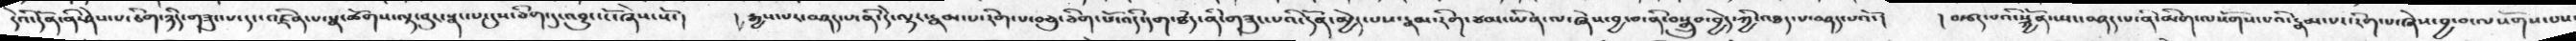དེའི་དོན་ནི་ཤེས་པ་ཅིག་ཉིད་གཟུང་པ་དང་འཛིན་པ་སྣ་ཚོགས་ལྟ་བུར་སྣང་པ་དུས་ཅིག་དུ་འབྱུང་ངོ་ཞེས་སོ་།  ། རྒྱས་པར་བཤད་པ་ནི་དེ་ལྟར་རྣམ་པ་རིག་པ་བཅུ་ཅིག་པོ་འདི་དག་ཐདཾ་ནི་གཟུང་པའི་དོན་མྱེད་པས་རྣམ་རིག་ཙམ་ཡིན་ལ་ཞེས་བྱ་བ་ནི་བསྒྲུབ་བྱེད་ཀྱི་འཐད་པ་བཤད་པའོ་།   ། བརྩད་པའི་སྐྱོན་སྤང་བཤད་པ་ནི་མིག་ལསོགས་པའི་རྣམ་པར་རིག་པ་ཞེས་བྱ་བ་ལསོགས་པས་
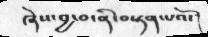ཞེས་བྱ་བ་ནི་བསྟན་པའོ་།
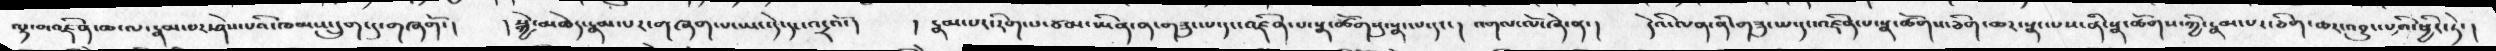ལྟ་བ་འཛིན་ཆ་ལ་རྣམ་པར་ཤེས་པའི་ཁམས་དྲུག་དུ་གཞགོ་།  ། སྐྱེ་མཆེད་རྣམ་པར་གཞག་པ་ཡང་དེ་དང་འདྲའོ་།  ། རྣམ་པར་རིག་པ་ཙམ་ཡིན་ན་གཟུང་པ་དང་འཛིན་པ་སྣ་ཚོགསུ་སྣང་པ་དང་།  འགལ་ལོ་ཞེ་ན་།  དེའི་ལན་ནི་གཟུང་པ་དང་འཛིན་པ་སྣ་ཚོགས་ཅིག་ཆར་སྣང་པས་ནི་སྣ་ཚོགས་ཀྱི་རྣམ་པར་ཅིག་ཆར་འབྱུང་པའི་ཕྱིར་ཏེ་།
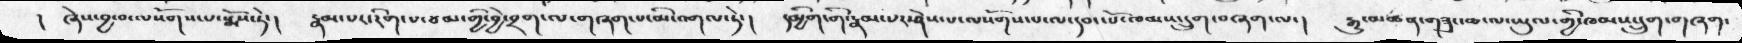། ཞེས་བྱ་བ་ལསོགས་པ་སྨོས་ཏེ་།  རྣམ་པར་རིག་པ་ཙམ་གྱི་བྱེ་བྲག་ལ་གཞག་པ་མི་འགལ་ཏེ་།  དམྱིག་གི་རྣམ་པར་ཤེས་པ་ལསོགས་པ་ལ་དབང་པོ་ཁམས་དྲུག་བཞག་ལ་།  རྒྱུ་མཚན་གཟུང་ཆ་ལ་ཡུལ་གྱི་ཁམས་དྲུག་གཞག་
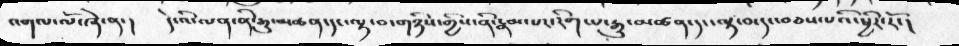འགལ་ལོ་ཞེ་ན་།  དེ་འི་ལན་ནི་རྒྱུ་མཚན་དང་ལྟ་བ་གཉིས་གྱིས་ནི་རྣམ་པར་རིག་པ་རྒྱུ་མཚན་དང་ལྟ་བ་དང་བཅས་པའི་ཕྱིར་རོ་།
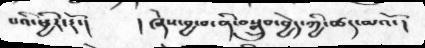པའི་ཕྱིར་རོ་།   ། ཞེས་བྱ་བ་ནི་བསྒྲུབ་བྱེད་ཀྱི་ཚད་མའོ་།
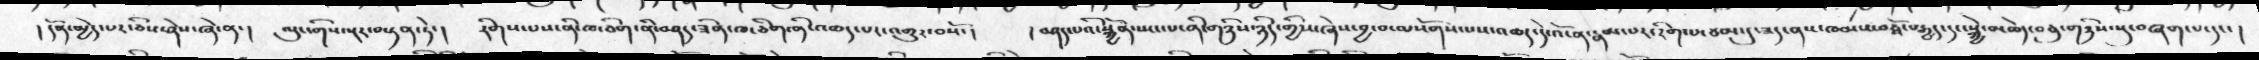། དོན་མྱེད་པར་ཅིས་ཤེས་ཞེ་ན་།  ལུང་གིས་སྔར་བསྟན་ཏེ་།  རིགས་པས་ནི་ཁ་ཅིག་ནི་བཤད་ཟིན་ཁ་ཅིག་ནི་འཆད་པར་འགྱུར་བསོ་།  །བཤད་པའི་སྐྱོན་སྤང་པ་ནི་གཉིས་ཉིད་གྱིས་ཞེས་བྱ་བ་ལསོགས་པས་འཆད་དེ་འོ་ན་རྣམ་པར་རིག་པ་ཙམ་དུ་ཟད་ནས་ཁམས་བཅྭོ་བརྒྱད་དང་སྐྱེ་མཆེད་བཅུ་གཉིས་སུ་བཞག་པ་དང་།
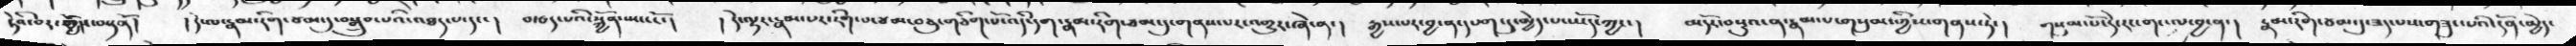ཏེའི་བར་ཁྱོད་བསྟནོ་།  །དེ་ལ་རྣམ་རིག་ཙམ་དུ་བསྒྲུབ་པའི་འཐད་པ་དང་།  བརྩད་པའི་སྐྱོན་སྤང་ངོ་།  །དེ་ལྟར་རྣམ་པར་རིག་པ་ཙམ་བཅུ་གཅིག་པོ་འདི་དག་རྣམ་རིག་ཙམ་དུ་གནས་འགྱུར་ཞེ་ན་།  རྒྱས་པར་བྱ་ན་དཔག་དུ་མྱེད་པ་ཡོད་ཀྱང་།  མདོར་བསྡུའ་ན་རྣམ་པ་གསུམ་གྱིས་གནས་ཏེ་།  གསུམ་པོ་ཏེ་རང་གང་ལ་བྱ་ན་།   རྣམ་རིག་ཙམ་དུ་ཟད་པས་གཟུང་པའི་དོན་མྱེད་
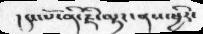། དང་པོ་ནི་ཇི་ལྟར་ནས་ཕྱིར་
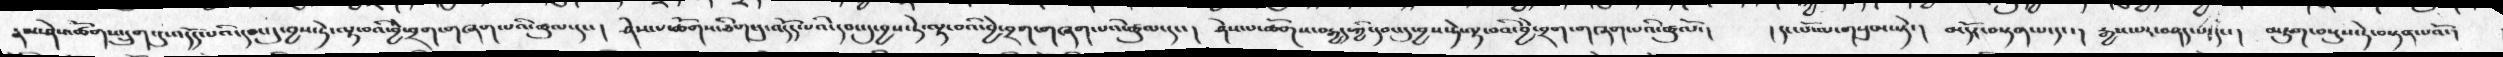རྣམ་ཤེས་ཚོགས་དྲུག་དུ་འདོད་པའི་དབང་དུ་བྱས་ཏེ་ལྟ་བའི་བྱེ་བྲག་གཞག་པའི་ཚུལ་དང་།  ཤེས་པ་ཚོགས་ཅིག་དུ་འདོད་པའི་དབང་དུ་བྱས་ཏེ་ལྟ་བའི་བྱེ་བྲག་གཞག་པའི་ཚུལ་དང་།  ཤེས་པ་ཚོགས་བརྒྱད་ཀྱི་དབང་དུ་བྱས་ཏེ་ལྟ་བའི་བྱེ་བྲག་གཞག་པའི་ཚུལོ་།    །དང་པོ་ལ་གསུམ་སྟེ་།  མདོར་བསྟན་པ་དང་།  རྒྱས་པར་བཤད་པ་དང་།  མཇུག་བསྡུས་ཏེ་བསྟན་པའོ་།
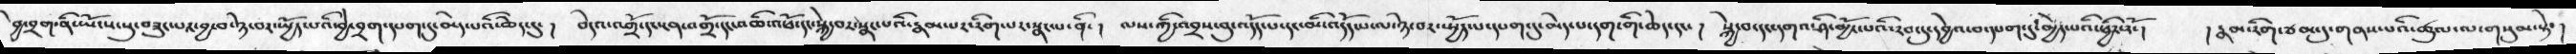བྱེ་བྲག་ནི་ཡོངས་སུ་བཟུང་པར་བྱ་བ་ཉེ་བར་སྤྱོད་པའི་བྱེ་བྲག་དཔག་དུ་མེད་པའི་ཆེད་དུ་།  བདེའ་འགྲོ་དང་ངན་འགྲོ་དང་འཆི་འཕོ་དང་སྐྱེ་བར་སྣང་པའི་རྣམ་པར་རིག་པར་སྣང་པ་ནི་།  ལས་ཀྱི་འབྲས་བུ་འདོད་པ་དང་མི་འདོད་པ་ལ་ཉེ་བར་སྤྱོད་པ་དཔག་དུ་མེད་པ་དག་གི་ཆེད་དང་།  སྐྱེ་བ་དང་དགའ་ཤི་མྱོང་པའི་རབ་དུ་དབྱེའ་བ་དཔག་དུ་མྱེད་པའི་ཕྱིར་རོ་།  །རྣམ་རིག་ཙམ་དུ་གནས་པའི་ཚུལ་ལ་གསུམ་སྟེ་།
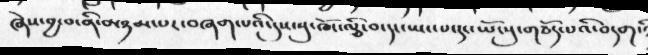ཞེས་བྱ་བ་ནི་མཉམ་པར་བཞག་པའི་དུས་སུ་ཁོང་ལྕི་བ་དང་ཡང་པ་དང་ཡོངསུ་གཅོད་པའི་བདག་
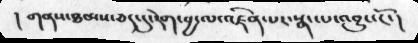། གནས་ཐམས་ཅད་དུ་རེག་བྱ་ལ་འཛིན་པར་སྣང་པ་འབྱུང་ངོ་།
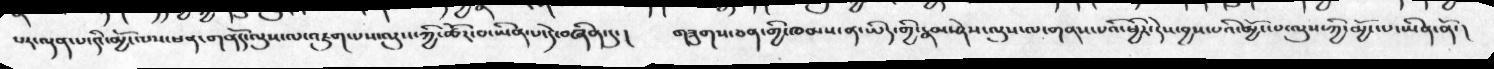པར་ལྡན་པ་འི་མྱོང་པས་ཕན་གནོད་ལུས་ལ་འཇུག་པས་ལུས་ཀྱི་ཚོར་བ་ཡིན་པ་དེ་བཞིན་དུ་།   གཟུགས་ཅན་གྱི་ཁམས་ན་ཡིད་གྱི་རྣམ་ཤེས་ལུས་ལ་གནས་པའི་ཕྱིར་དེས་བྱས་པའི་མྱོང་པ་ལུས་ཀྱི་མྱོང་པ་ཡིན་ནོ་།
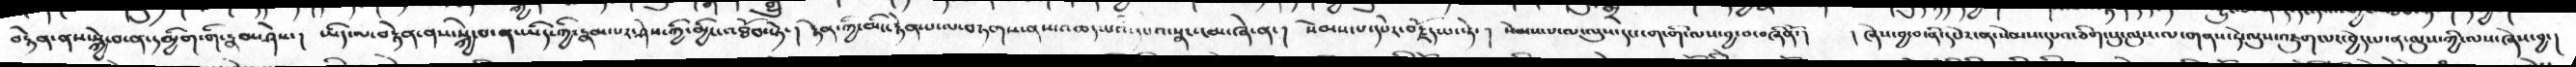བརྟེན་ནས་སྐྱེ་བ་ན་དམྱིག་གི་རྣམ་ཤེས་།   ཡིད་ལ་བརྟེན་ནས་སྐྱེ་བ་ན་ཡིད་ཀྱི་རྣམ་པར་ཤེས་ཀྱི་མྱིང་འཐོབ་སྟེ་།  རྟེན་ཀྱི་མིང་རྟེན་པ་ལ་བཏགས་ནས་འཆད་པའི་དཔའ་སྣང་ངམ་ཞེ་ན་།   སེམས་པ་དཔེར་བརྗོད་པ་སྟེ་།   སེམས་པ་ལ་ལུས་དང་ངག་གི་ལས་བྱ་བ་བཞིནོ་།   ། ཞེས་བྱ་བ་ནི་དཔེར་ན་སེམས་དཔའ་ཅིག་པུ་ལུས་ལ་གནས་ཏེ་ལུས་འཇུག་པར་བྱེད་པ་ན་ལུས་ཀྱི་ལས་ཞེས་བྱ་།
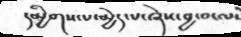དམྱིགས་པ་མྱེད་པ་ཞེས་བྱ་བ་ལ་
